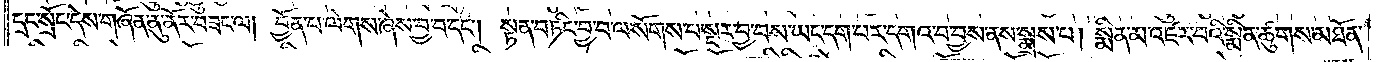དྲང་སྲོང་དེས་གཞོན་ནུ་ནོར་བཟང་ལ། བྱོན་པ་ལེགས་ཞེས་བྱ་བ་དང༌། སྟན་བཏིང་བྱ་བ་ལ་སོགས་པ་སྔར་བྱ་བས་ཡང་དག་པར་དགའ་བ་བྱས་ནས་སྨྲས་པ། སྨིན་མ་འཛར་བའི་སྨིན་ཚུགས་མཐོན་
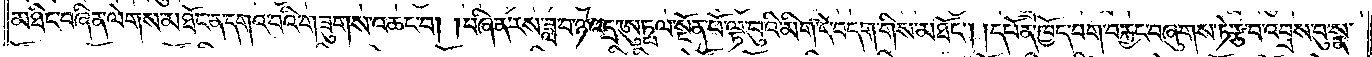མཐིང་བཞིན་ལེགས་མཐོང་ན་དགའ་བའི་གཟུགས་འཆང་བ། །བཞིན་རས་ཟླ་བ་ཉ་འདྲ་ཨུཏྤལ་སྔོན་པོ་ལྟ་བུའི་མིག་དེ་བདག་གིས་མཐོང༌། །དཔོན་ཁྱོད་བག་བརྐྱང་བཞུགས་ཏེ་རྩ་བ་འབྲས་བུ་སྣ་
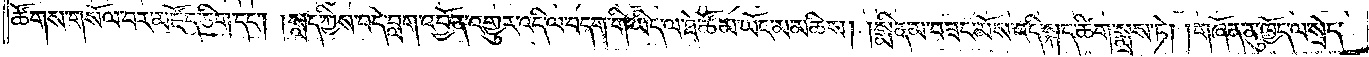ཚོགས་གསོལ་བར་མཛོད་ཅིག་དང༌། །སླད་ཀྱིས་བདེ་བླག་འབྱོན་འགྱུར་འདི་ལ་བདག་གི་ཡིད་ལ་ཐེ་ཚོམ་ཡོང་མ་མཆིས། །སྨིན་མ་བཟང་མོས་འདི་སྐད་ཚིག་སྨྲས་ཏེ། །གཞོན་ནུ་ཁྱོད་ལ་སྲེད་
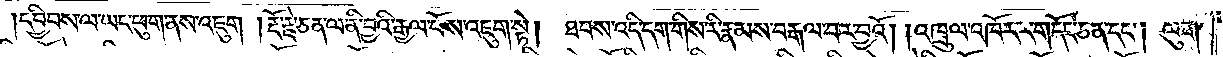དབྱིབས་ལ་ཡང་ཕུག་ནས་འཇུག །རྡོ་རྗེ་ཅན་ལ་ནི་བྱའི་རྒྱལ་པོས་འཇུག་སྟེ།  ཐབས་འདི་དག་གིས་རི་རྣམས་བརྒལ་བར་བྱའོ། །འཁྲུལ་འཁོར་ང་གདོང་ཅན་དང༌། ལུག་
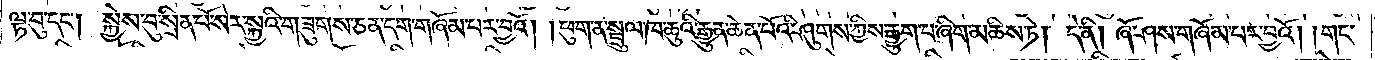ལྟ་བུ་དང༌། སྐྱེས་བུ་སྲིན་པོ་སེར་སྐྱའི་གཟུགས་ཅན་དག་གཞོམ་པར་བྱའོ། །ཕུག་ན་སྦྲུལ་ཁ་ཆུའི་རྒྱུན་ཆེན་པོའི་ཤུགས་ཀྱིས་རྒྱུག་པ་ཞིག་མཆིས་ཏེ། དེ་ནི། ཞོ་ཤས་གཞོམ་པར་བྱའོ། །གང་
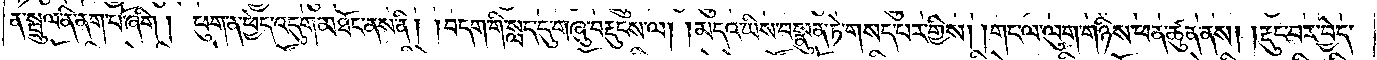ན་སྦྲུལ་ནི་ནག་པོ་ཞིག། ཕུག་ན་ཕྱེད་འདུག་མཐོང་ནས་ནི། །བདག་གི་སླད་དུ་གཞུ་བརྡུངས་ལ། །མདའ་ཡིས་བསྣུན་ཏེ་གསད་པར་གྱིས། །གང་ལ་ལུག་གཉིས་ཕན་ཚུན་ནས། །རྡུང་བར་བྱེད་
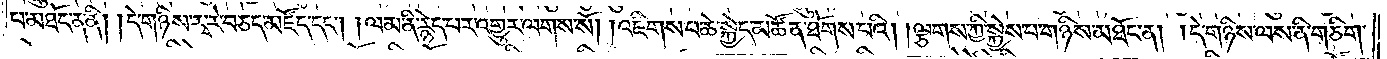པ་མཐོང་ན་ནི། །དེ་གཉིས་རྭ་རེ་བཅད་མཛོད་དང༌། །ལམ་ནི་རྙེད་པར་འགྱུར་ལགས་སོ། །འཇིགས་པ་ཆེ་སྐྱེས་མཚོན་ཐོགས་པའི། །ལྕགས་ཀྱི་སྐྱེས་པ་གཉིས་མཐོང་ན། །དེ་གཉིས་ལས་ནི་གཅིག་
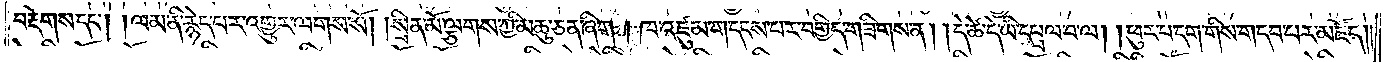བརྡེགས་དང༌། །ལམ་ནི་རྙེད་པར་འགྱུར་ལགས་སོ། །སྲིན་མོ་ལྕགས་ཀྱི་མཆུ་ཅན་ཞིག །ཁ་འཛུམ་གདངས་པར་བགྱིད་གཟིགས་ན། །དེ་ཚེ་དེ་ཡི་དཔྲལ་བ་ལ། །ཕུར་པ་དག་གིས་གདབ་པར་མཛོད། །
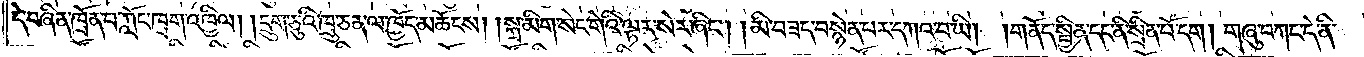དེ་བཞིན་ཁྲོན་པ་ཀློང་ཁྲག་འཁྱིལ། །དྲུག་ཅུའི་ཁྲུ་ཅན་ལ་ཁྱོད་མཆོངས། །སྐྲ་མིག་སེང་གེའི་ལྷར་སེར་ཞིང༌། །མི་བཟད་བསྙེན་པར་དཀའ་བ་ཡི། །གནོད་སྦྱིན་དང་ནི་སྲིན་པོ་དག། གཞུ་བཀང་དེ་ནི་
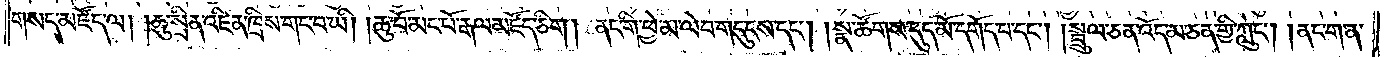གསད་མཛོད་ལ། །ཆུ་སྲིན་འཛིན་ཁྲིས་གང་བ་ཡི། །ཆུ་བོ་མང་པོ་རྒལ་མཛོད་ཅིག །ནང་གི་ཕྱེ་མ་ལེབ་གདུངས་དང༌། །སྣ་ཚོགས་དུད་མ་དགོད་པ་དང༌། །སྦྲུལ་ཅན་འོད་མ་ཅན་གྱི་ཀླུང༌། །ནང་ག་ན་
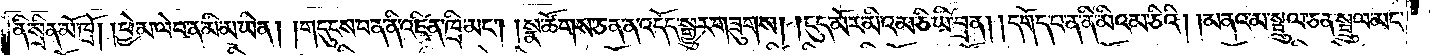ནི་སྲིན་མོ་ཁྲོ། །ཕྱེ་མ་ལེབ་ན་མི་མ་ཡིན། །གདུངས་པ་ན་ནི་འཛིན་ཁྲི་མང༌། །སྣ་ཚོགས་ཅན་ན་འདོད་སྒྱུར་གཟུགས། །ངུད་མོར་མི་འམ་ཅི་ཡི་བྲན། །དགོད་པ་ན་ནི་མིའམ་ཅིའི། །མནའ་མ་སྦྲུལ་ཅན་སྦྲུལ་མང་
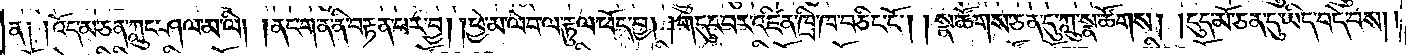ན། །འོད་མ་ཅན་ཀླུང་ཤལ་མ་ལི། །ནང་ག་ན་ནི་བརྟན་པར་བྱ། །ཕྱེ་མ་ལེབ་ལ་རྟུལ་ཕོད་བྱ། །གདུང་བར་འཛིན་ཁྲི་ཁ་བཅིང་ངོ༌། །སྣ་ཚོགས་ཅན་དུ་ཀླུ་སྣ་ཚོགས། །དུད་མོ་ཅན་དུ་ཡིད་བདེ་བས། །
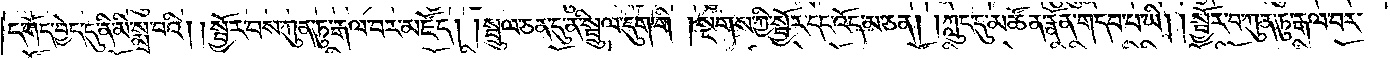དགོད་བྱེད་དུ་ནི་མི་སྨྲ་བའི། །སྦྱོར་བས་ཀུན་ཏུ་རྒལ་བར་མཛོད། །སྦྲུལ་ཅན་དུ་ནི་སྦྲུལ་དུག་གི །སྔགས་ཀྱི་སྦྱོར་དང་འོད་མ་ཅན། །ཀླུང་དུ་མཚོན་རྣོན་གདབ་པ་ཡི། །སྦྱོར་བ་ཀུན་ཏུ་རྒལ་བར་
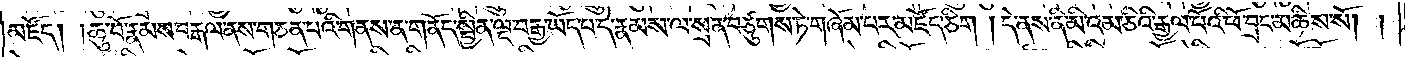མཛོད། །ཆུ་བོ་རྣམས་བརྒལ་ནས་གཅན་པའི་གནས་ན་གནོད་སྦྱིན་ལྔ་བརྒྱ་ཡོད་པ་དེ་རྣམས་ལ་སྲན་བཙུགས་ཏེ་གཞོམ་པར་མཛོད་ཅིག །དེ་ནས་ནི་མིའམ་ཅིའི་རྒྱལ་པོའི་ཕོ་བྲང་མཆིས་སོ། །
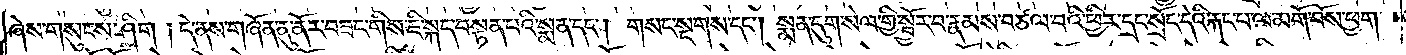ཞེས་གསུངས་ཤིག །དེ་ནས་གཞོན་ནུ་ནོར་བཟང་གིས་ཇི་སྐད་བསྟན་པའི་སྨན་པ་དང༌། གསང་སྔགས་དང༌། སྨན་དུག་སེལ་གྱི་སྦྱོར་བ་རྣམས་བཙལ་བའི་ཕྱིར་དྲང་སྲོང་དེའི་རྐང་པ་ལ་མགོ་བོས་ཕྱག་
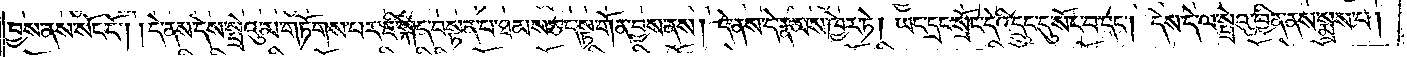བྱས་ནས་སོང་ངོ༌། །དེ་ནས་དེས་སྤྲེའུ་མ་གཏོགས་པར་ཇི་སྐད་བསྟན་པ་ཐམས་ཅད་སྟ་གོན་བྱས་ནས། དེ་ནས་དེ་རྣམས་ཁྱེར་ཏེ། ཡང་དྲང་སྲོང་དེའི་དྲུང་དུ་སོང་བ་དང༌། དེས་དེ་ལ་སྤྲེའུ་བྱིན་ནས་སྨྲས་པ།
